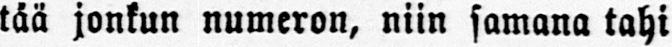tää jonkun numeron, niin samana tahi
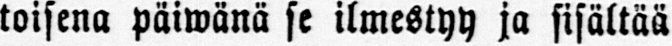toisena päiwänä se ilmestyy ja sisältää
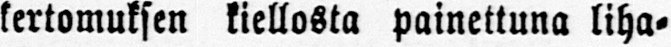kertomuksen kiellosta painettuna liha-
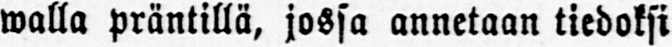walla präntillä, jossa annetaan tiedoksi
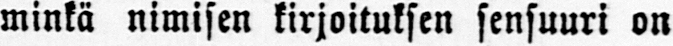minkä nimisen kirjoituksen sensuuri on
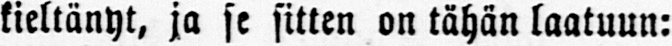kieltänyt, ja se sitten on tähän laatuun:
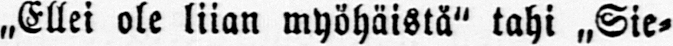Ellei ole liian myöhäistä" tahi ˶Sie-
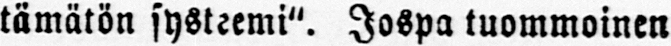tämätön systeemi". Jospa tuommoinen
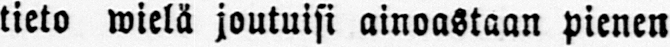tieto wielä joutuisi ainoastaan pienen
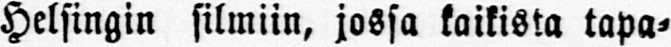Helsingin silmiin, jossa kaikista tapa-
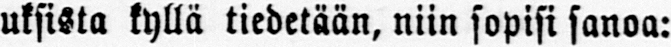uksista kyllä tiedetään, niin sopisi sanoa:
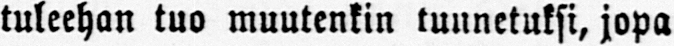tuleehan tuo muutenkin tunnetuksi, jopa
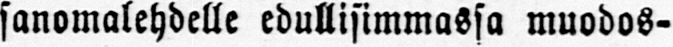sanomalehdelle edullisimmassa muodos-
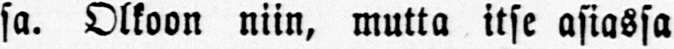sa. Olkoon niin, mutta itse asiassa
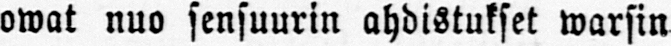owat nuo sensuurin ahdistukset warsin
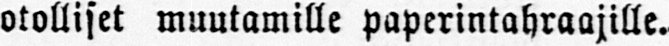otolliset muutamille paperintahraajille.
